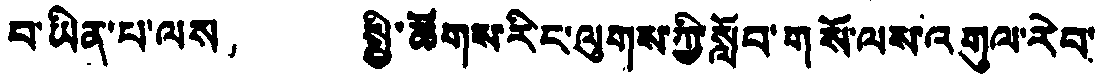བ་ཡིན་པ་ལས， སྤྱི་ཚོགས་རིང་ལུགས་ཀྱི་སློབ་གསོ་ལས་འགུལ་རེབ་
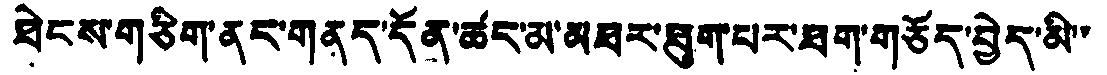ཐངས་གཅིག་ནད་གནད་དོན་ཚང་མ་མཐར་ཐུག་པར་ཐག་གཅོད་བྱེད་མ་་
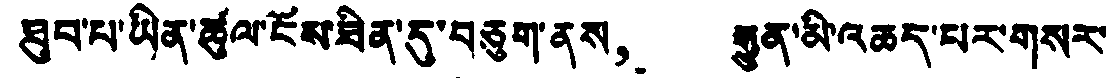ཐུབ་པ་ཡིན་ཚུལ་ངོས་ཟིན་དུ་བཅུག་ནས， རྒྱུན་མི་འཆད་པར་གསར་
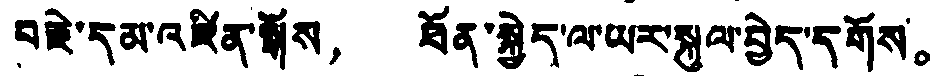བརྗེ་དམ་འཛིན་སྒོས， ཐོན་སྐྱེད་ལ་ཡར་སྐུལ་བྱེད་དགོས。
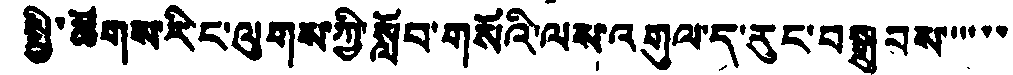སྤྱི་ཚོགས་རིང་ལུགས་ཀྱི་སློབ་གསོའི་ལས་འགུལ་ད་རུང་བསྒྲུབས་་་་་་
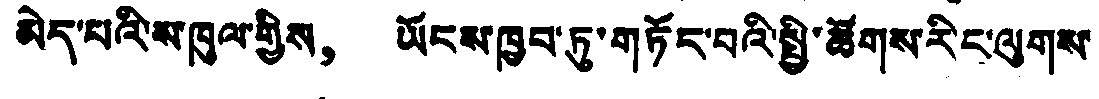མེད་པའི་ས་ཁུལ་གྱིས， ཡོངས་ཁྱབ་ཏུ་གཏོང་བའི་སྤྱི་ཚོགས་རིང་ལུགས་
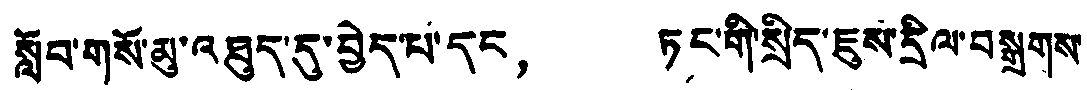སློབ་གསོ་མུ་འཐུད་དུ་བྱེད་པ་དང， ཏང་གི་སྲིད་ཇུས་དྲིལ་བསྒྲགས་
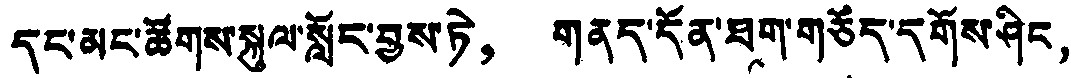དང་མང་ཚོགས་སྐུལ་སློང་བྱས་ཏེ， གནད་དོན་ཐག་གཅོད་དགོས་ཤིང，
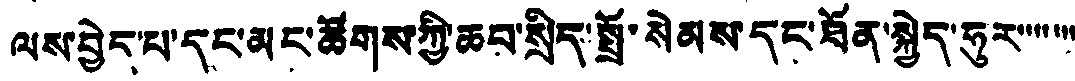ལས་བྱེད་པ་དང་མང་ཚོགས་ཀྱི་ཆབ་སྲིད་སྤྲོ་སེམས་དང་ཐོན་སྐྱེད་ཧུར་་་་་་་
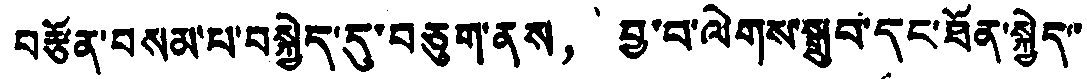བརྩོན་བསམ་པ་བསྐྱེད་དུ་བཅུག་ནས， བྱ་བ་ལེགས་སྒྲུབ་དང་ཐོན་སྐྱེད་་
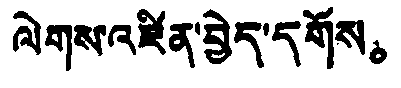ལེགས་འཛིན་བྱེད་དགོས。
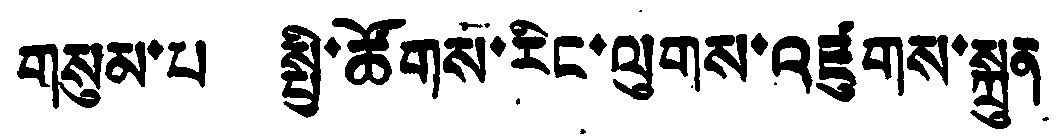གསུམ་པ སྤྱི་ཚོགས་རིང་ལུགས་འཛུགས་སྐྲུན
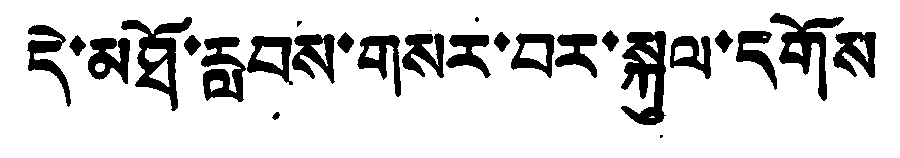དེ་མཐོ་རླབས་གསར་བར་སྐུལ་དགོས
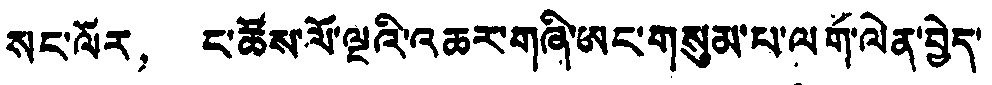སང་ལོར， ང་ཚོས་ལོ་ལྔའི་འཆར་གཞི་ཨང་གསུམ་པ་ལགོ་ལེན་བྱེད་
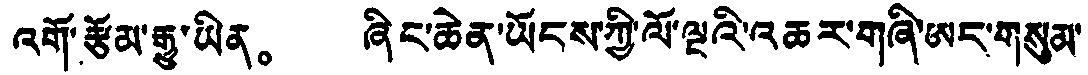འགོ་རྩོམ་རྒྱུ་ཡིན。 ཞིང་ཆེན་ཡོངས་ཀྱི་ལོ་ལྔའི་འཆར་གཞི་ཨང་གསུམ་
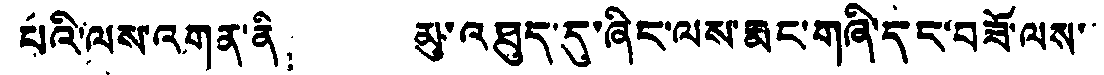པའི་ལས་འགན་ནི： མུ་འཐུད་དུ་ཞིང་ལས་རྨང་གཞི་དང་བཟོ་ལས་་
